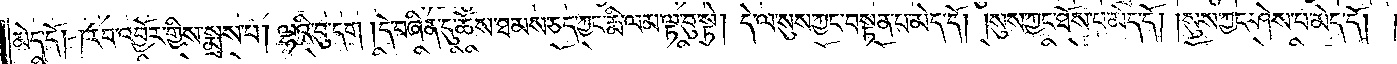མེད་དོ། །རབ་འབྱོར་གྱིས་སྨྲས་པ། ལྷའི་བུ་དག །དེ་བཞིན་དུ་ཆོས་ཐམས་ཅད་ཀྱང་རྨི་ལམ་ལྟ་བུ་སྟེ། དེ་ལ་སུས་ཀྱང་བསྟན་པ་མེད་དོ། །སུས་ཀྱང་ཐོས་པ་མེད་དོ། །སུས་ཀྱང་ཤེས་པ་མེད་དོ། །
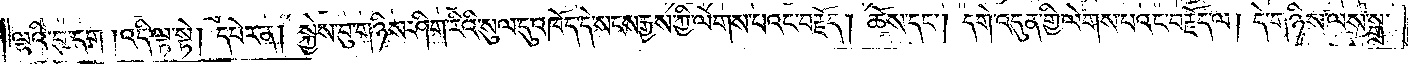ལྷའི་བུ་དག །འདི་ལྟ་སྟེ། དཔེར་ན། སྐྱེས་བུ་གཉིས་ཤིག་རིའི་སུལ་དུ་འཁོད་དེ་སངས་རྒྱས་ཀྱི་ལེགས་པའང་བརྗོད། ཆོས་དང༌། དགེ་འདུན་གྱི་ལེགས་པའང་བརྗོད་ལ། དེ་གཉིས་ལས་སྒྲ་
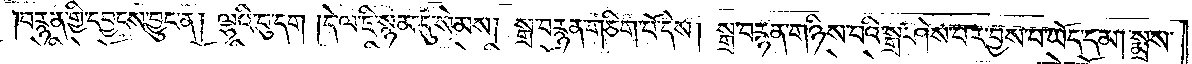བརྙན་གྱི་དབྱངས་བྱུང་ན། ལྷའི་བུ་དག །དེ་ལ་ཇི་སྙམ་དུ་སེམས། སྒྲ་བརྙན་གཅིག་པོ་དེས། སྒྲ་བརྙན་གཉིས་པའི་སྒྲ་ཤེས་པར་བྱས་པ་ཡོད་དམ། སྨྲས་
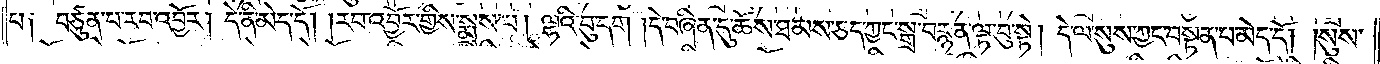པ༏ བཙུན་པ་རབ་འབྱོར། དེ་ནི་མེད་དོ། །རབ་འབྱོར་གྱིས་སྨྲས་པ། ལྷའི་བུ་དག །དེ་བཞིན་དུ་ཆོས་ཐམས་ཅད་ཀྱང་སྒྲ་བརྙན་ལྟ་བུ་སྟེ། དེ་ལ་སུས་ཀྱང་བསྟན་པ་མེད་དོ། །སུས་
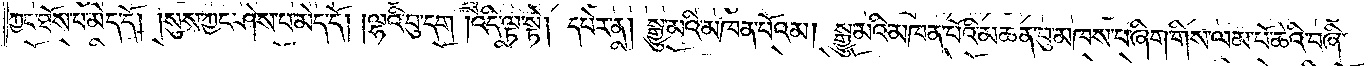ཀྱང་ཐོས་པ་མེད་དོ། །སུས་ཀྱང་ཤེས་པ་མེད་དོ། །ལྷའི་བུ་དག །འདི་ལྟ་སྟེ། དཔེར་ན། སྒྱུ་མའི་མཁན་པོ་འམ། སྒྱུ་མའི་མཁན་པོའི་མཆན་བུ་མཁས་པ་ཞིག་གིས་ལམ་པོ་ཆེའི་བཞི་
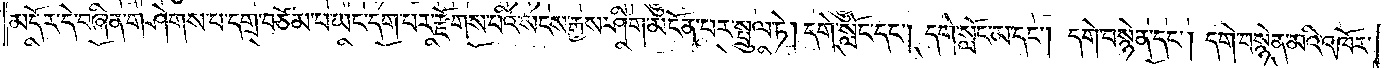མདོར་དེ་བཞིན་གཤེགས་པ་དགྲ་བཅོམ་པ་ཡང་དག་པར་རྫོགས་པའི་སངས་རྒྱས་ཤིག་མངོན་པར་སྤྲུལ་ཏེ། དགེ་སློང་དང༌། དགེ་སློང་མ་དང༌། དགེ་བསྙེན་དང༌། དགེ་བསྙེན་མའི་འཁོར་
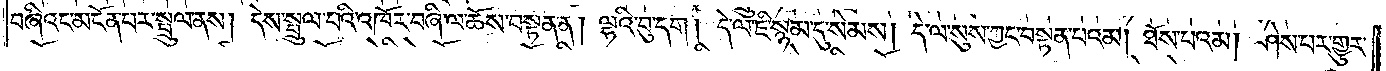བཞིའང་མངོན་པར་སྤྲུལ་ནས། དེས་སྤྲུལ་པའི་འཁོར་བཞི་ལ་ཆོས་བསྟན་ན། ལྷའི་བུ་དག། དེ་ལ་ཇི་སྙམ་དུ་སེམས། དེ་ལ་སུས་ཀྱང་བསྟན་པ་འམ། ཐོས་པ་འམ། ཤེས་པར་གྱུར་
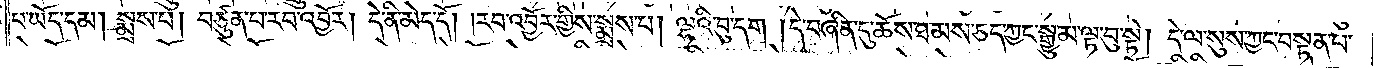པ་ཡོད་དམ། སྨྲས་པ། བཙུན་པ་རབ་འབྱོར། དེ་ནི་མེད་དོ། །རབ་འབྱོར་གྱིས་སྨྲས་པ། ལྷའི་བུ་དག །དེ་བཞིན་དུ་ཆོས་ཐམས་ཅད་ཀྱང་སྒྱུ་མ་ལྟ་བུ་སྟེ། དེ་ལ་སུས་ཀྱང་བསྟན་པ་
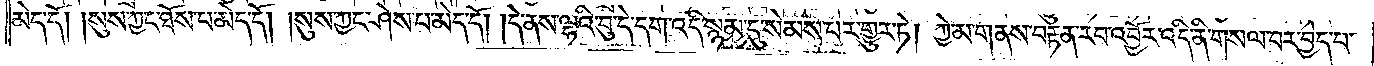མེད་དོ། །སུས་ཀྱང་ཐོས་པ་མེད་དོ། །སུས་ཀྱང་ཤེས་པ་མེད་དོ། །དེ་ནས་ལྷའི་བུ་དེ་དག་འདི་སྙམ་དུ་སེམས་པར་གྱུར་ཏེ། ཀྱེ་མ་གནས་བརྟན་རབ་འབྱོར་འདི་ནི་གསལ་བར་བྱེད་པ་
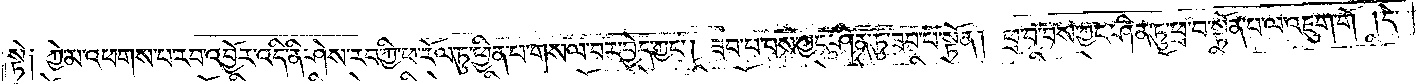སྟེ༏ ཀྱེ་མ་འཕགས་པ་རབ་འབྱོར་འདི་ནི་ཤེས་རབ་ཀྱི་ཕ་རོལ་ཏུ་ཕྱིན་པ་གསལ་བར་བྱེད་ཀྱང༌། ཟབ་པ་བས་ཀྱང་ཤིན་ཏུ་ཟབ་པ་སྟོན། ཕྲ་བ་བས་ཀྱང་ཤིན་ཏུ་ཕྲ་བ་སྟོན་པ་ལ་འཇུག་གོ །དེ་
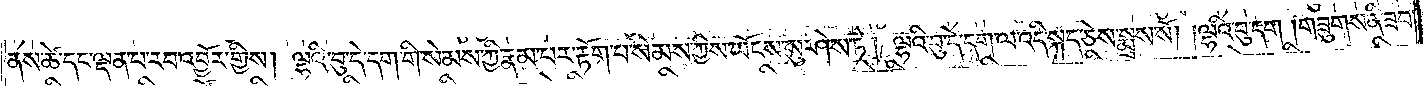ནས་ཚེ་དང་ལྡན་པ་རབ་འབྱོར་གྱིས། ལྷའི་བུ་དེ་དག་གི་སེམས་ཀྱི་རྣམ་པར་རྟོག་པ་སེམས་ཀྱིས་ཡོངས་སུ་ཤེས་ཏེ། ལྷའི་བུ་དེ་དག་ལ་འདི་སྐད་ཅེས་སྨྲས་སོ། །ལྷའི་བུ་དག །གཟུགས་ནི་ཟབ་
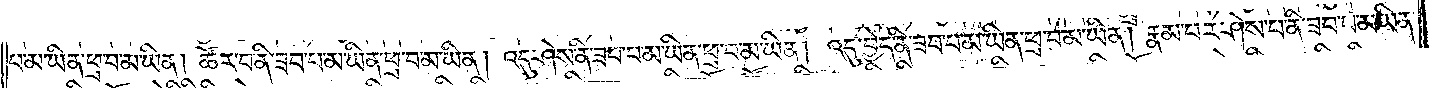པ་མ་ཡིན་ཕྲ་བ་མ་ཡིན། ཚོར་བ་ནི་ཟབ་པ་མ་ཡིན་ཕྲ་བ་མ་ཡིན། འདུ་ཤེས་ནི་ཟབ་པ་མ་ཡིན་ཕྲ་བ་མ་ཡིན། འདུ་བྱེད་ནི་ཟབ་པ་མ་ཡིན་ཕྲ་བ་མ་ཡིན། རྣམ་པར་ཤེས་པ་ནི་ཟབ་པ་མ་ཡིན་
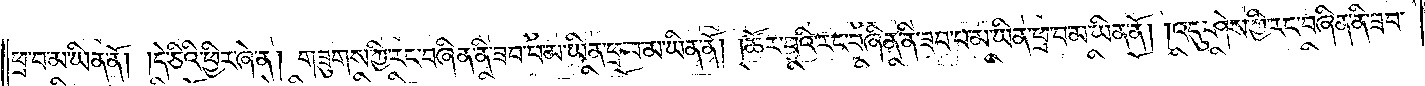ཕྲ་བ་མ་ཡིན་ནོ། །དེ་ཅིའི་ཕྱིར་ཞེ་ན། གཟུགས་ཀྱི་རང་བཞིན་ནི་ཟབ་པ་མ་ཡིན་ཕྲ་བ་མ་ཡིན་ནོ། །ཚོར་བའི་རང་བཞིན་ནི་ཟབ་པ་མ་ཡིན་ཕྲ་བ་མ་ཡིན་ནོ། །འདུ་ཤེས་ཀྱི་རང་བཞིན་ནི་ཟབ་
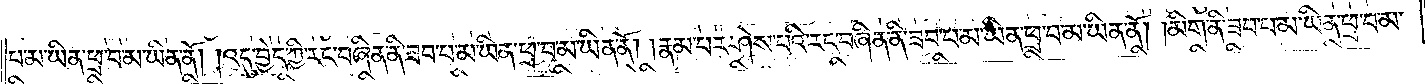པ་མ་ཡིན་ཕྲ་བ་མ་ཡིན་ནོ། །འདུ་བྱེད་ཀྱི་རང་བཞིན་ནི་ཟབ་པ་མ་ཡིན་ཕྲ་བ་མ་ཡིན་ནོ། །རྣམ་པར་ཤེས་པའི་རང་བཞིན་ནི་ཟབ་པ་མ་ཡིན་ཕྲ་བ་མ་ཡིན་ནོ། །མིག་ནི་ཟབ་པ་མ་ཡིན་ཕྲ་བ་མ་
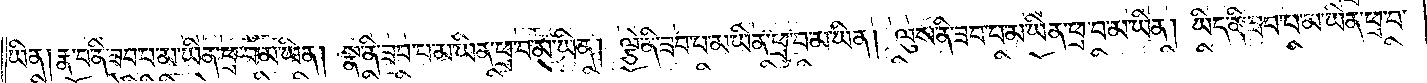ཡིན། རྣ་བ་ནི་ཟབ་པ་མ་ཡིན་ཕྲ་བ་མ་ཡིན། སྣ་ནི་ཟབ་པ་མ་ཡིན་ཕྲ་བ་མ་ཡིན། ལྕེ་ནི་ཟབ་པ་མ་ཡིན་ཕྲ་བ་མ་ཡིན། ལུས་ནི་ཟབ་པ་མ་ཡིན་ཕྲ་བ་མ་ཡིན། ཡིད་ནི་ཟབ་པ་མ་ཡིན་ཕྲ་བ་
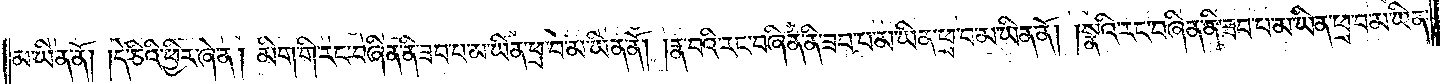མ་ཡིན་ནོ། །དེ་ཅིའི་ཕྱིར་ཞེ་ན། མིག་གི་རང་བཞིན་ནི་ཟབ་པ་མ་ཡིན་ཕྲ་བ་མ་ཡིན་ནོ། །རྣ་བའི་རང་བཞིན་ནི་ཟབ་པ་མ་ཡིན་ཕྲ་བ་མ་ཡིན་ནོ། །སྣའི་རང་བཞིན་ནི་ཟབ་པ་མ་ཡིན་ཕྲ་བ་མ་ཡིན་
